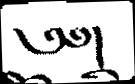༄༅།
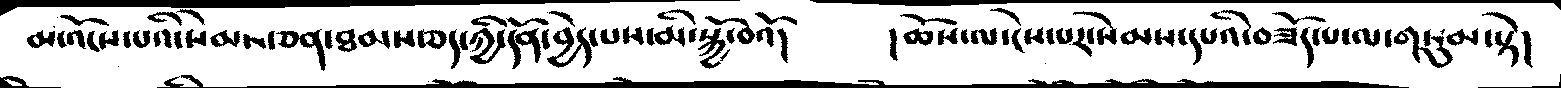མ་འོངས་པའི་སེམས་ཅན་ཐམས་ཅད་ཀྱི་དོན་བྱེད་པས་མི་སྐྱོ་བའོ།    །ཆོས་ལ་ངེས་པར་སེམས་དཔའི་བཟོད་པ་ལ་གསུམ་སྟེ།
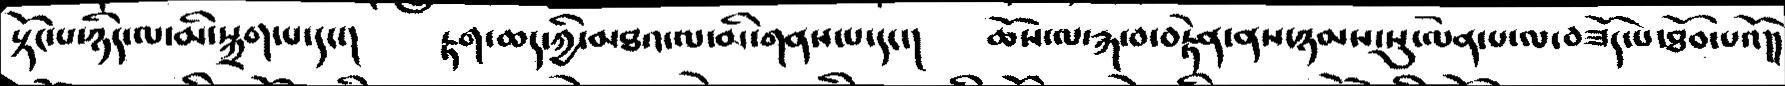སྟོང་པ་ཉིད་ལ་མི་སྐྲག་པ་དང་།   རྟག་ཆད་ཀྱི་མཐའ་ལ་མི་གནས་པ་དང་།   ཆོས་ལ་རྐ་བ་བརྟེན་ནས་ཉམས་སུ་ལེན་པ་ལ་བཟོད་པ་ཐོབ་པའོ།།
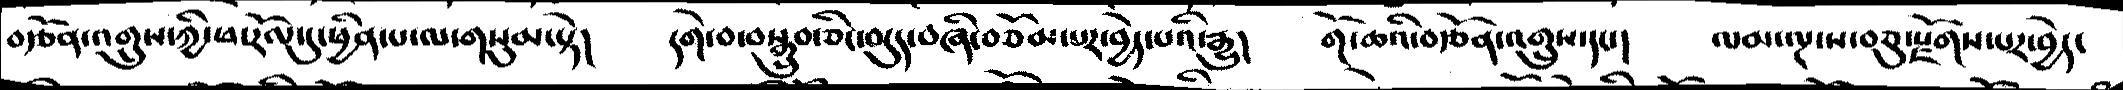བརྩོན་འགྲུས་ཀྱི་ཕ་རོལ་དུ་ཕྱིན་པ་ལ་གསུམ་སྟེ།   དགེ་བ་བསྒྲུབ་ཅིང་བདུད་བཞི་བཅོམ་པར་བྱེད་པའི་རྒྱུ།   གོ་ཆའི་བརྩོན་འགྲུས་དང་།   ལམ་ལྔ་ས་བཅུ་རྫོགས་པར་བྱེད་
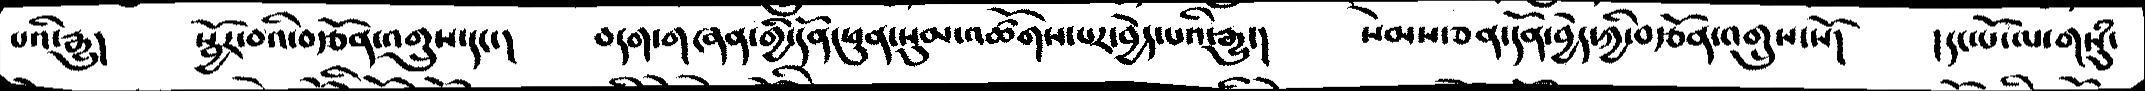པའི་རྒྱུ།   སྦྱོར་བའི་བརྩོན་འགྲུས་དང་།   བདག་གཞན་གྱི་དོན་ཕུན་སུམ་འཚོགས་པར་བྱེད་པའི་རྒྱུ་།   སེམས་ཅན་དོན་བྱེད་ཀྱི་བརྩོན་འགྲུས་སོ།   །དང་པོ་ལ་གསུཾ་
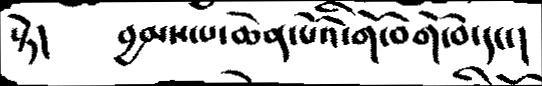སྟེ།    བྱམས་པ་ཆེན་པོའི་གོ་བགོ་བ་དང་།
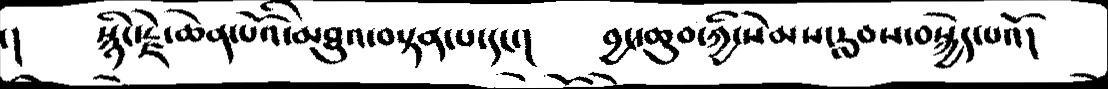་།   སྙིང་རྗེ་ཆེན་པོའི་མཐུའ་བསྟན་པ་དང་།   བྱང་ཆུབ་ཀྱི་སེམས་རླབས་བསྐྱེད་པའོ།
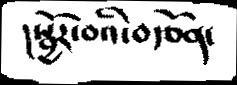།སྦྱོར་བའི་བརྩོན་
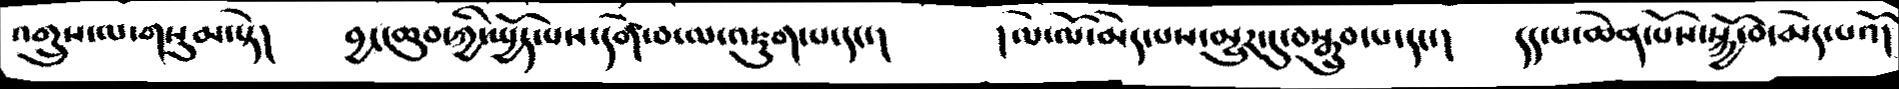འགྲུས་ལ་གསུམ་སྟེ།   བྱང་ཆུབ་ཀྱི་སྤྱོད་པས་དགེ་བ་ལ་འཇུག་པ་དང་།    །ལེ་ལོ་མེད་པས་མྱུར་དུ་བསྒྲུབ་པ་དང་།   དད་པ་ཆེན་པོས་སྐྱོ་བ་མེད་པའོ།
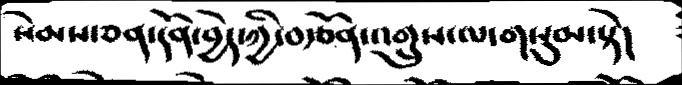སེམས་ཅན་དོན་བྱེད་ཀྱི་བརྩོན་འགྲུས་ལ་གསུམ་སྟེ།
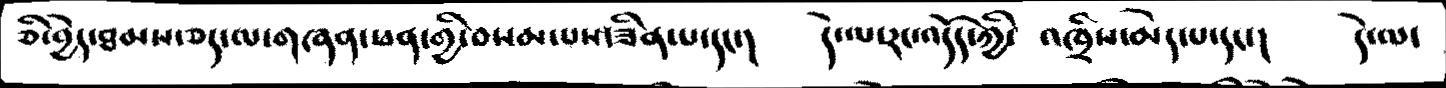ཅི་བྱེད་ཐབས་ཅད་ལ་གཞན་ཕན་གྱི་བསམ་པས་ཟིན་པ་དང་།    དེ་ལ་རང་འདོད་ཀྱི་   འཁྲིས་མེད་པ་དང་།   དེ་ལ་
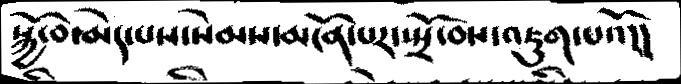སྐྱོ་བ་མེད་པས་སེམས་མངོན་པར་སྤྲོ་བས་འཇུག་པའོ།།
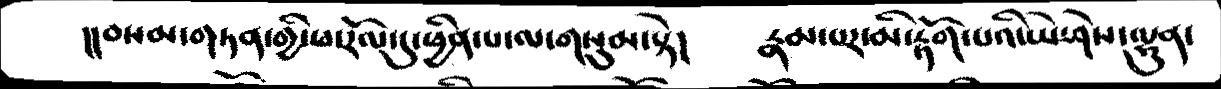།།བསམ་གཏན་གྱི་ཕ་རོལ་དུ་ཕྱིན་པ་ལ་གསུམ་སྟེ།    རྣམ་པར་མི་རྟོག་པའི་ཡེ་ཤེས་ལྷུན་
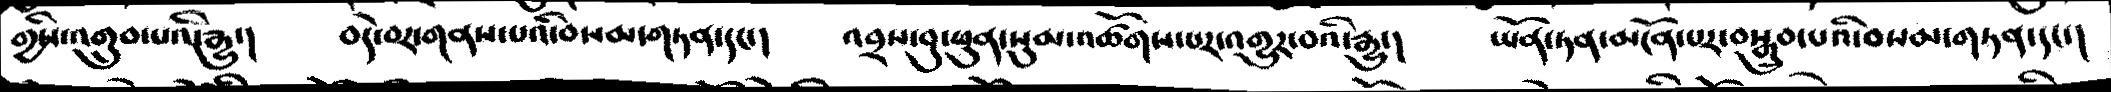གྱིས་འགྲུབ་པའི་རྒྱུ་།   བདེ་བར་གནས་པའི་བསམ་གཏན་དང་།   འབྲས་བུ་ཕུན་སུམ་འཚོགས་པར་འགྱུར་བའི་རྒྱུ་།    ཡོན་ཏན་མངོན་པར་བསྒྲུབ་པའི་བསམ་གཏན་དང་།
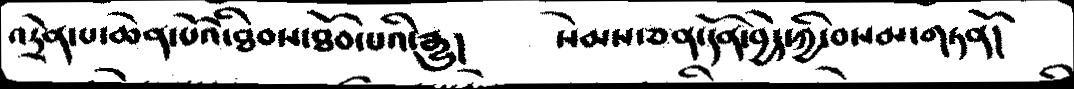འདྲེན་པ་ཆེན་པོའི་ཐབསཐོབ་པའི་རྒྱུ།    སེམས་ཅན་དོན་བྱེད་ཀྱི་བསམ་གཏནོ།
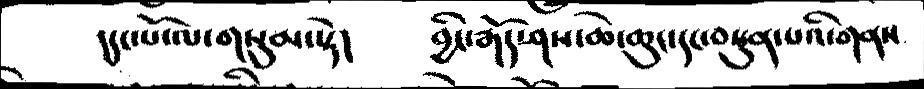།དང་པོ་ལ་གསུམ་སྟེ།   བྱིང་རྒོད་ཤས་ཆེ་ཆུང་དང་བསྟུན་པའི་གནས
